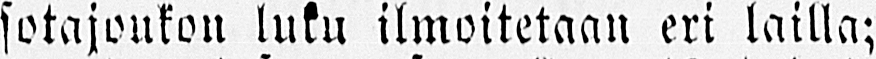sotajoukon luku ilmoitetaan eri lailla;
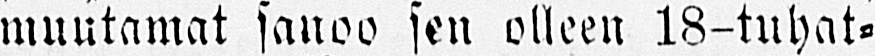muutamat sanoo sen olleen 18-tuhat-
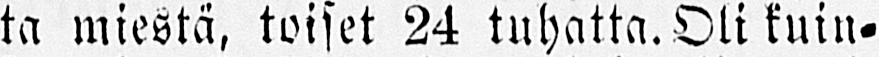ta miestä, toiset 24 tuhatta. Oli kuin-
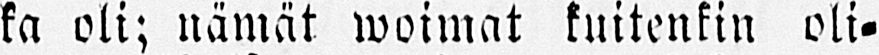ka oli; nämät woimat kuitenkin oli-
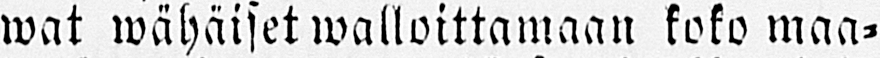wat wähäiset walloittamaan kokomaa-
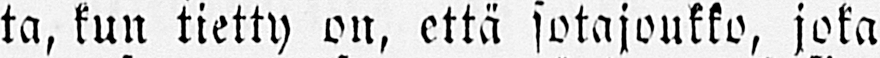ta, kun tietty on, että sotajoukko, joka
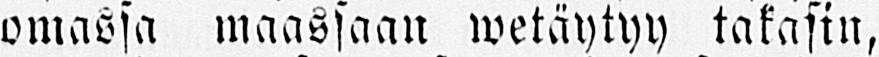omassa maassaan wetäytyy takasin,
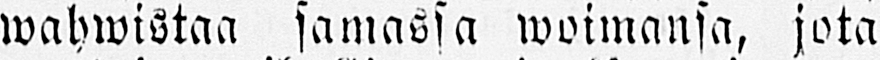wahwistaa samassa woimansa, jota
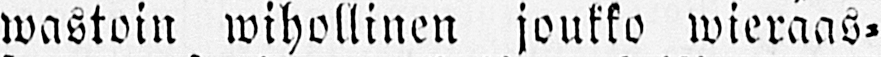wastoin wihollinen joukko wieraas-
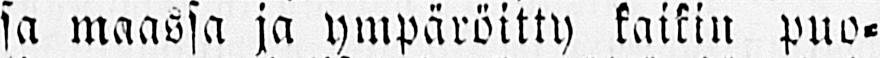sa maassa ja ympäröitty kaikin puo-
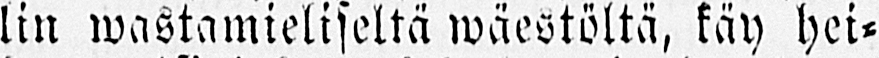lin wastamieliseltä wäestöltä, käy hei-
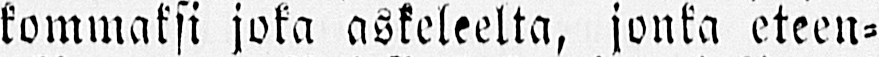kommaksi joka askeleelta, jonka eteen-
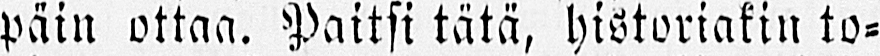päin ottaa. Paitsi tätä, historiakin to-
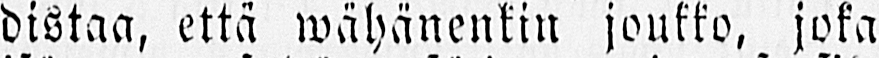distaa, että wähänenkin joukko, joka
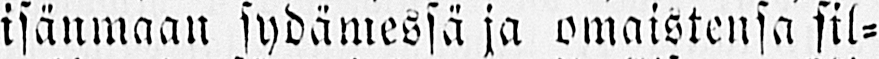isänmaan sydämessä ja omaistensa sil-
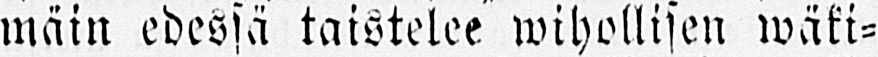mäin edessä taistelee wihollisen wäki-
